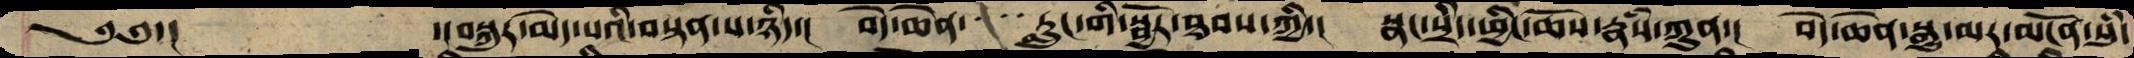༄༅་།     ་།བསྐུར་མེད་པའི་བསྟན་པ་ཉིད་།   བདེ་ཆེན་་་་རླུང་གི་སྦྱོར་ཐབས་ཀྱི་།  སྣང་སྲིད་ཕྱིང་ཆོས་རྣཾས་ཀུན་།  བདེ་ཆེན་སྒྱུ་མར་མངོན་སུཾ་
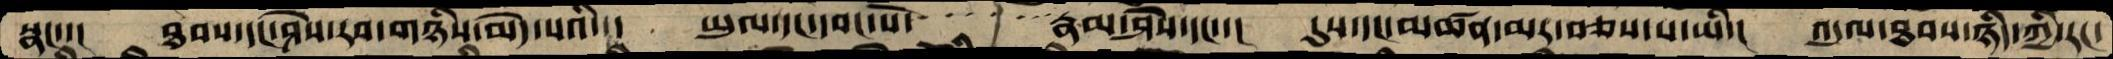སྣང་་།  ཐབས་དང་ཤེས་རབ་གཉིས་མེད་པའི་།  ཡུལ་དང་དབང་པོ་ ་ ་ ་ ་ ་ ་རྣམ་ཤེས་དང་་།  དུས་དང་མཚན་མར་བཅས་པ་ཡི་།  འདུལ་ཐབས་ཉིད་ཀྱི་རང་
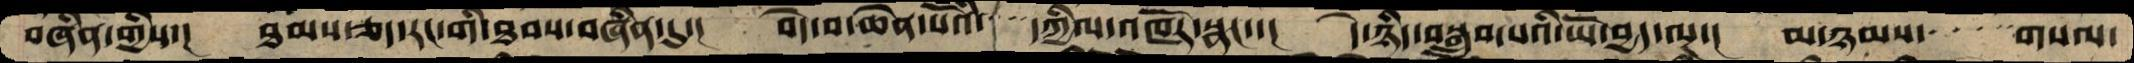བཞིན་གྱིས་།  ཐམས་ཅད་རང་གི་ཐབས་བཞིན་དུ་།  བདེ་བ་ཆེན་པོའི་་་་དཀྱིལ་འཁོར་སྣང་་།  དེ་ཉིད་བསྒྲུབ་པའི་ཡོ་བྱད་ལྔ་།  མ་ཉམས་་་་ ་གསལ་
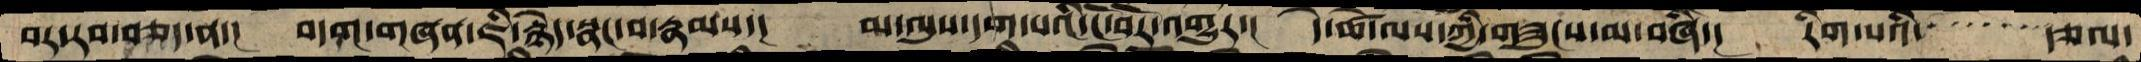བར་རབ་བཅད་ན་།  བདག་གཞན་ཇི་རྙེད་སྣང་བ་རྣམས་།  མ་ལུས་དག་པའི་ངོ་བོར་འགྱུར་།  དེ་ཚེ་ལས་ཀྱི་གཟུངས་མ་བཞི་།  རིག་པའི་་་་་་་་རྩལ་
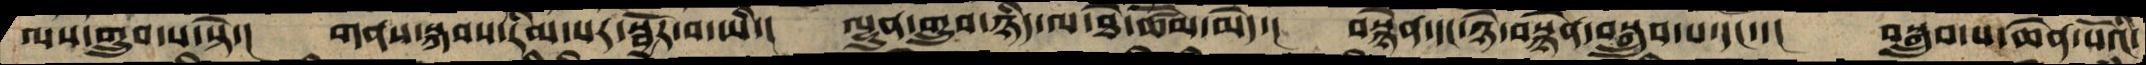ལས་གྲུབ་པ་སྟེ་།  གནས་སྐབས་རིམ་པར་སྦྱོར་བ་ཡི་།  ལྷུན་གྲུབ་ཉིད་ལ་ཐེ་ཚོམ་མེད་།  བསྙེན་དང་ཉེ་བསྙེན་བསྒྲུབ་པ་དང་་།  བསྒྲུབ་པ་ཆེན་པོའི་
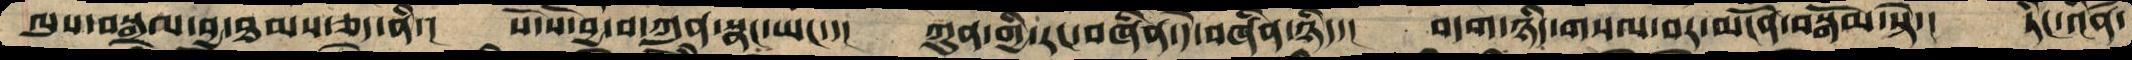ལུས་བསྒྲལ་བྱ་ཐམས་ཅད་ནི་།  སོ་སོ་བྱ་བ་ཀུན་སྣང་ཡང་་།  ཀུན་གྱི་རང་བཞིན་དེ་བཞིན་ཉིད་།  བདག་ཉིད་གསལ་བར་མངོན་བསྒོམ་སྟེ་།  ཏིང་འཛིན་
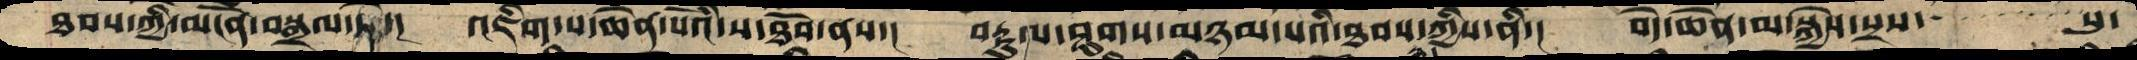ཐབས་ཀྱི་མངོན་བསྒྲལ་ཏེ་།  འཇིག་པ་ཆེན་པོའི་ས་ཐོབ་ནས་།  བརྡུལ་ཤུགས་མཉམ་པའི་ཐབས་ཀྱིས་ནི་།   བདེ་ཆེན་མ་སྐྱེས་སྲས་་་་་་་་་སུ་
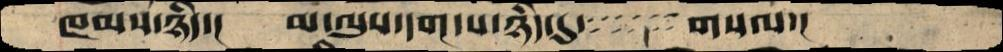ཁམས་ཉིད་།   མ་ལུས་དག་པ་ཉིད་དུ་་་་་་་་་གསལ་།
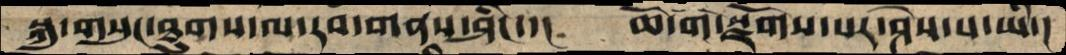སྐུ་གསུང་ཐུགས་ལ་རབ་གནས་ཤིང་་།   ཆོ་ག་སྫོགས་པར་ཤེས་པ་ཡི་།
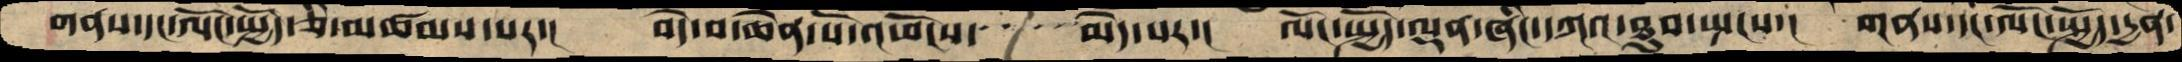གནས་དང་ལོང་སྤྱོད་ཅི་མཚམས་པར་།   བདེ་བ་ཆེན་པོ་འཕོངས་་་་་མེད་པར་།   ལོང་སྤྱོད་ལྡན་ཞིང་དཀའ་ཐུབ་སྤངས་།  གནས་དང་ལོང་སྤྱོད་དྱན་
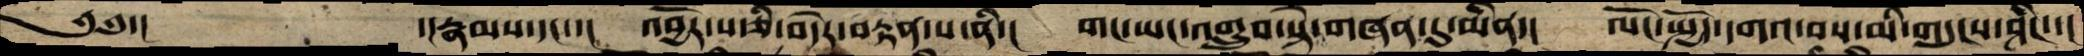༄༅་།             ་།རྣམས་དང་་།    འབྱོར་པ་ཅི་བདེར་བརྟན་པ་ནི་།    གང་ཡང་འགྲུབ་སྟེ་གཞན་དུ་མིན་།  ལོང་སྤྱོད་དགའ་བས་མི་གདུངས་ཤིང་་།
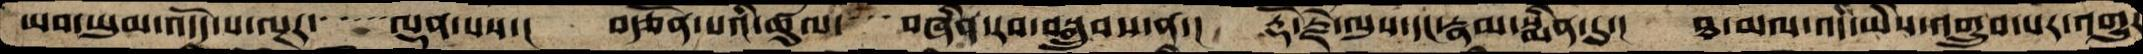ཡབ་ཡུམ་འདོད་པ་ལྔར་་་་་ལྡན་པས་།  བརྩོན་པའི་ཚུལ་་་་བཞིན་རབ་བསྒྲུབས་ན་།  རྡོ་རྗེ་ལུས་དང་རྣམ་སྨིན་དུ་།  ཐ་མལ་འདི་ཡིས་འགྲུབ་པར་འགྱུར
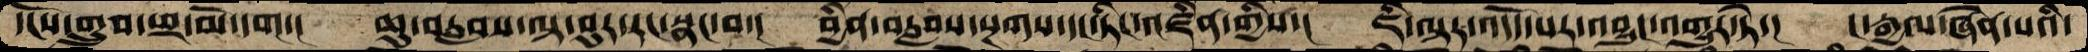དངོས་གྲུབ་ཕྲ་མོ་དག།  ཆུ་བརླབས་ལྟ་བུར་རང་སྣང་བ་།  བྱིན་བརླབས་སྔགས་དང་ཏིང་འཛིན་གྱིས་།  ཇི་ལྟར་འདོད་པར་འབྱུང་འགྱུར་ཏེ་།  ང་རྒྱལ་ཞེན་པའི་
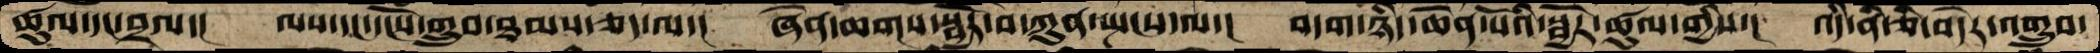ཚུལ་དང་བྲལ་།  ལས་དང་དངོས་གྲུབ་ཐམས་ཅད་ལ་།  ཞེན་ཆགས་སྦྱོར་བ་ཀུན་སྤངས་ལ་།  བདག་ཉིད་ཆེན་པོའི་སྦྱོར་ཚུལ་གྱིས་།  འདི་ནི་ཅི་བདེར་འགྲུབ་
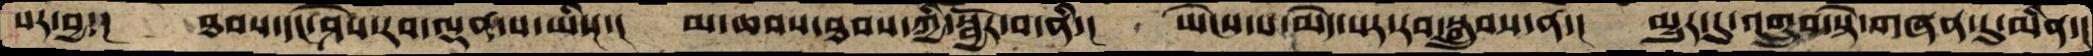པར་བྱ་།  ཐབས་དང་ཤེས་རབ་ལྡན་པ་ཡིས་།  མ་ཆབས་ཐབས་ཀྱི་སྦྱོར་བ་ནི་།  ཡེངས་པ་མེད་པར་རབ་སྒྲུབས་ན་།  མྱུར་དུ་འགྲུབ་སྟེ་གཞན་དུ་མིན་།
